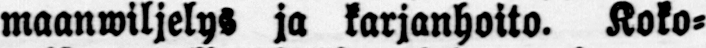maanwiljelys ja karjanhoito. Koko-
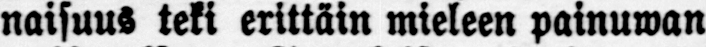naisuus teki erittäin mieleen painuwan
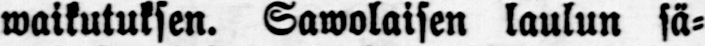waikutuksen. Sawolaisen laulun sä-
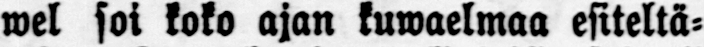wel soi koko ajan kuwaelmaa esiteltä-
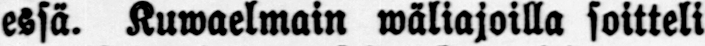essä. Kuwaelmain wäliajoilla soitteli
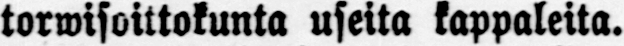torwisoittokunta useita kappaleita.
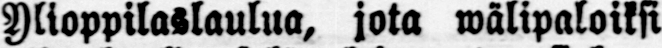Ylioppilaslaulua, jota wälipaloiksi
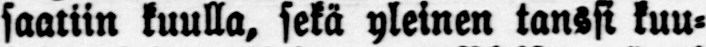saaliin kuulla, sekä yleinen tanssi kuu-
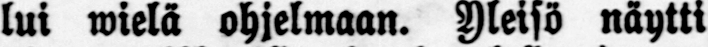lui wielä ohjelmaan. Yleisö näytti
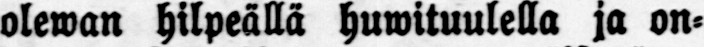olewan hilpeällä huwituulella ja on-
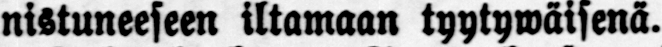nistuneeseen iltamaan tyytywäisenä.
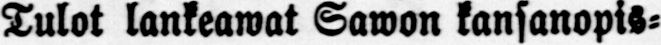Tulot lankeawat Sawon kansanopis-
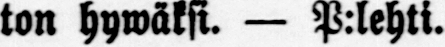ton hywäksi. — P.lehti.
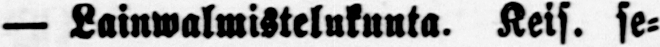— Lainwalmistelukunta. Keis. se-
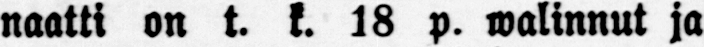naatti on t. k. 18 p. walinnut ja
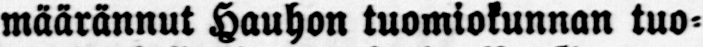määrännut Hauhon tuomiokunnan tuo-
